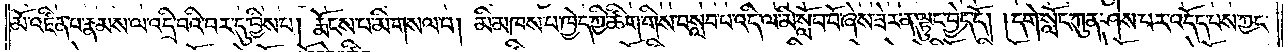མོ་འཛིན་པ་རྣམས་ལ་འདྲི་བའི་བར་དུ་བྱིས་པ། རྨོངས་པ་མི་གསལ་བ། མི་མཁས་པ་ཁྱེད་ཀྱི་ཚིག་གིས་བསླབ་པ་འདི་ལ་མི་སློབ་པོ་ཞེས་ཟེར་ན་ལྟུང་བྱེད་དོ། །དགེ་སློང་ཀུན་ཤེས་པར་འདོད་པས་ཀྱང་
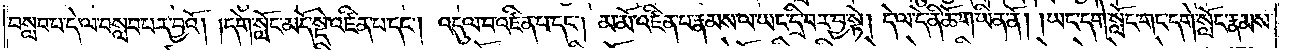བསླབ་པ་དེ་ལ་བསླབ་པར་བྱའོ། །དགེ་སློང་མདོ་སྡེ་འཛིན་པ་དང༌། འདུལ་བ་འཛིན་པ་དང༌། མ་མོ་འཛིན་པ་རྣམས་ལ་ཡང་དྲི་བར་བྱ་སྟེ། དེ་ལ་དེ་ནི་ཆོ་ག་ཡིན་ནོ། །ཡང་དགེ་སློང་གང་དགེ་སློང་རྣམས་
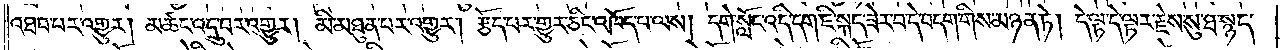འཐབ་པར་འགྱུར། མཚང་འདྲུ་བར་འགྱུར། མི་མཐུན་པར་འགྱུར། རྩོད་པར་གྱུར་ཅིང་འཁོད་པ་ལས། དགེ་སློང་འདི་དག་ཇི་སྐད་ཟེར་བ་དེ་བདག་གིས་མཉན་ཏེ། དེ་ལྟ་དེ་ལྟར་རྗེས་སུ་ཐ་སྙད་
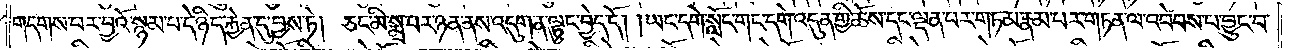གདགས་པར་བྱའོ་སྙམ་པ་དེ་ཉིད་རྐྱེན་དུ་བྱས་ཏེ། ཅང་མི་སྨྲ་བར་ཉན་ནས་འདུག་ན་ལྟུང་བྱེད་དོ། །ཡང་དགེ་སློང་གང་དགེ་འདུན་གྱི་ཆོས་དང་ལྡན་པར་གཏམ་རྣམ་པར་གཏན་ལ་འབེབས་པར་བྱུང་བ་
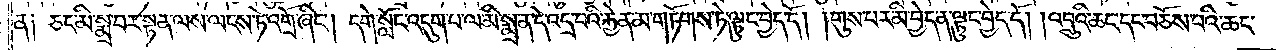ན༑ ཅང་མི་སྨྲ་བར་སྟན་ལས་ལངས་ཏེ་འགྲོ་ཞིང༌། དགེ་སློང་འདུག་པ་ལ་མི་སྨྲ་ན་དེ་འདྲ་བའི་རྐྱེན་མ་གཏོགས་ཏེ་ལྟུང་བྱེད་དོ། །གུས་པར་མི་བྱེད་ན་ལྟུང་བྱེད་དོ། །འབྲུའི་ཆང་དང་བཅོས་པའི་ཆང་
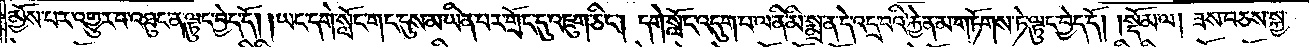མྱོས་པར་འགྱུར་བ་འཐུང་ན་ལྟུང་བྱེད་དོ། །ཡང་དགེ་སློང་གང་དུས་མ་ཡིན་པར་གྲོང་དུ་འཇུག་ཅིང༌། དགེ་སློང་འདུག་པ་ལ་ནི་མི་སྨྲ་ན་དེ་འདྲ་བའི་རྐྱེན་མ་གཏོགས་ཏེ་ལྟུང་བྱེད་དོ།    །སྡོམ་ལ། ཟས་བཅས་སྐྱ་
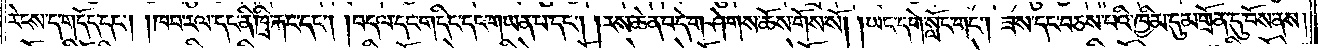རེངས་ད་གདོད་དང༌། །ཁབ་རལ་དང་ནི་ཁྲི་རྐང་དང༌། །བདལ་དང་གདིང་དང་གཡན་པ་དང༌། །རས་ཆེན་བདེ་གཤེགས་ཆོས་གོས་སོ། །ཡང་དགེ་སློང་གང༌། ཟས་དང་བཅས་པའི་ཁྱིམ་དུ་མགྲོན་དུ་བོས་ནས།
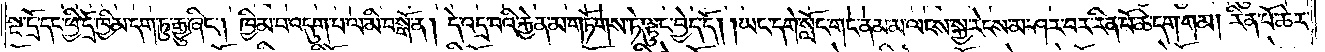སྔ་དྲོ་དང་ཕྱི་དྲོ་ཁྱིམ་དག་ཏུ་རྒྱུ་ཞིང༌། ཁྱིམ་པ་འདུག་པ་ལ་མི་བསྒོ་ན། དེ་འདྲ་བའི་རྐྱེན་མ་གཏོགས་ཏེ་ལྟུང་བྱེད་དོ། །ཡང་དགེ་སློང་གང་ནམ་མ་ལངས་སྐྱ་རེངས་མ་ཤར་བར་རིན་པོ་ཆེ་དག་གམ། རིན་པོ་ཆེར་
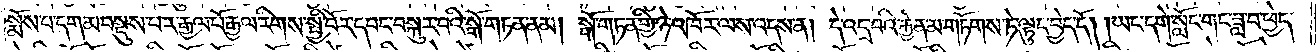སྨོས་པ་དག་མ་བསྡུས་པར་རྒྱལ་པོ་རྒྱལ་རིགས་སྤྱི་བོར་དབང་བསྐུར་བའི་སྒོ་གཏན་ནམ། སྒོ་གཏན་གྱི་ཉེ་འཁོར་ལས་འདས་ན། དེ་འདྲ་བའི་རྐྱེན་མ་གཏོགས་ཏེ་ལྟུང་བྱེད་དོ། །ཡང་དགེ་སློང་གང་ཟླ་བ་ཕྱེད་
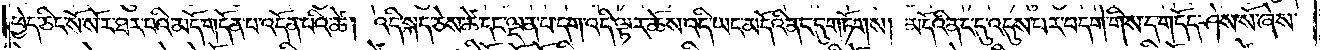ཕྱེད་ཅིང་སོ་སོར་ཐར་པའི་མདོ་གདོན་པ་འདོན་པའི་ཚེ། འདི་སྐད་ཅེས་ཚེ་དང་ལྡན་པ་དག་འདི་ལྟར་ཆོས་འདི་ཡང་མདོའི་ནང་དུ་གཏོགས། མདོའི་ནང་དུ་འདུས་པར་བདག་གིས་ད་གདོད་ཤེས་སོ་ཞེས་
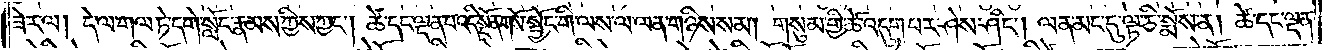ཟེར་ལ། དེ་ལ་གལ་ཏེ་དགེ་སློང་རྣམས་ཀྱིས་ཀྱང༌། ཚེ་དང་ལྡན་པ་འདི་སྔོན་གསོ་སྦྱོང་གི་ལས་ལ་ལན་གཉིས་སམ། གསུམ་གྱི་ཚེ་འདུག་པར་ཤེས་ཤིང༌། ལན་མང་དུ་ལྟ་ཅི་སྨོས་ན། ཚེ་དང་ལྡན་
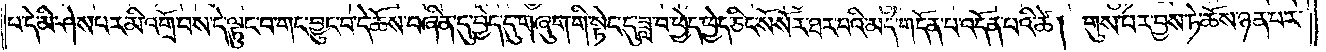པ་དེ་མི་ཤེས་པར་མི་འགྲོ་བས་དེ་ལྟུང་བ་གང་བྱུང་བ་དེ་ཆོས་བཞིན་དུ་བྱེད་དུ་གཞུག་གི་སྟེང་དུ་ཟླ་བ་ཕྱེད་ཕྱེད་ཅིང་སོ་སོར་ཐར་པའི་མདོ་གདོན་པ་འདོན་པའི་ཚེ། གུས་པར་བྱས་ཏེ་ཆོས་ཉན་པར་
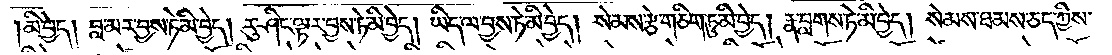མི་བྱེད། བླ་མར་བྱས་ཏེ་མི་བྱེད། རུ་ཤིང་ལྟར་བྱས་ཏེ་མི་བྱེད། ཡིད་ལ་བྱས་ཏེ་མི་བྱེད། སེམས་རྩེ་གཅིག་ཏུ་མི་བྱེད། རྣ་བླགས་ཏེ་མི་བྱེད། སེམས་ཐམས་ཅད་ཀྱིས་
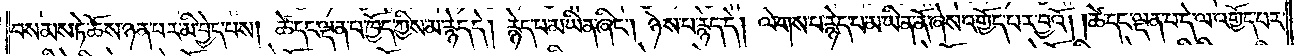བསམས་ཏེ་ཆོས་ཉན་པར་མི་བྱེད་པས། ཚེ་དང་ལྡན་པ་ཁྱོད་ཀྱིས་མ་རྙེད་དེ། རྙེད་པ་མ་ཡིན་ཞིང༌། ཉེས་པ་རྙེད་དེ། ལེགས་པ་རྙེད་པ་མ་ཡིན་ནོ་ཞེས་འགྱོད་པར་བྱའོ། །ཚེ་དང་ལྡན་པ་དེ་ལ་འགྱོད་པར་
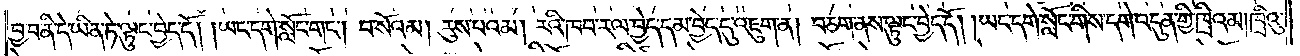བྱ་བ་ནི་དེ་ཡིན་ཏེ་ལྟུང་བྱེད་དོ། །ཡང་དགེ་སློང་གང༌། བ་སོའམ། རུས་པའམ། རའི་ཁབ་རལ་བྱེད་དམ་བྱེད་དུ་འཇུག་ན། བཅག་ནས་ལྟུང་བྱེད་དོ། །ཡང་དགེ་སློང་གིས་དགེ་འདུན་གྱི་ཁྲིའམ། ཁྲིའུ་
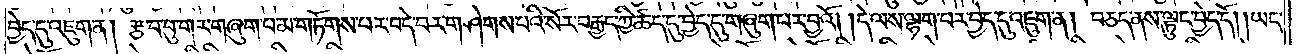བྱེད་དུ་འཇུག་ན། རྩ་བ་བུ་གར་གཞུག་པ་མ་གཏོགས་པར་བདེ་བར་གཤེགས་པའི་སོར་བརྒྱད་ཀྱི་ཚད་དུ་བྱེད་དུ་གཞུག་པར་བྱའོ། །དེ་ལས་ལྷག་པར་བྱེད་དུ་འཇུག་ན། བཅད་ནས་ལྟུང་བྱེད་དོ། །ཡང་
